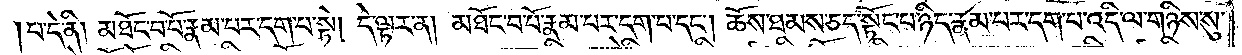པ་དེ་ནི། མཐོང་བ་པོ་རྣམ་པར་དག་པ་སྟེ། དེ་ལྟར་ན། མཐོང་བ་པོ་རྣམ་པར་དག་པ་དང༌། ཆོས་ཐམས་ཅད་སྟོང་པ་ཉིད་རྣམ་པར་དག་པ་འདི་ལ་གཉིས་སུ་
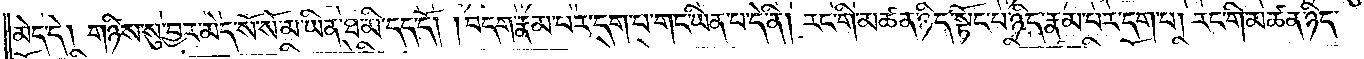མེད་དེ། གཉིས་སུ་བྱར་མེད་སོ་སོ་མ་ཡིན་ཐ་མི་དད་དོ། །བདག་རྣམ་པར་དག་པ་གང་ཡིན་པ་དེ་ནི། རང་གི་མཚན་ཉིད་སྟོང་པ་ཉིད་རྣམ་པར་དག་པ། རང་གི་མཚན་ཉིད་
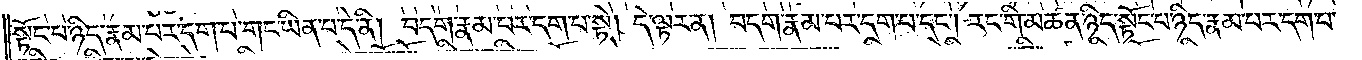སྟོང་པ་ཉིད་རྣམ་པར་དག་པ་གང་ཡིན་པ་དེ་ནི། བདག་རྣམ་པར་དག་པ་སྟེ། དེ་ལྟར་ན། བདག་རྣམ་པར་དག་པ་དང༌། རང་གི་མཚན་ཉིད་སྟོང་པ་ཉིད་རྣམ་པར་དག་པ་
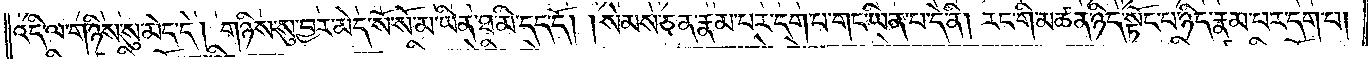འདི་ལ་གཉིས་སུ་མེད་དེ། གཉིས་སུ་བྱར་མེད་སོ་སོ་མ་ཡིན་ཐ་མི་དད་དོ། །སེམས་ཅན་རྣམ་པར་དག་པ་གང་ཡིན་པ་དེ་ནི། རང་གི་མཚན་ཉིད་སྟོང་པ་ཉིད་རྣམ་པར་དག་པ།
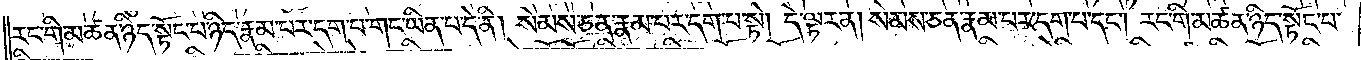རང་གི་མཚན་ཉིད་སྟོང་པ་ཉིད་རྣམ་པར་དག་པ་གང་ཡིན་པ་དེ་ནི། སེམས་ཅན་རྣམ་པར་དག་པ་སྟེ། དེ་ལྟར་ན། སེམས་ཅན་རྣམ་པར་དག་པ་དང༌། རང་གི་མཚན་ཉིད་སྟོང་པ་
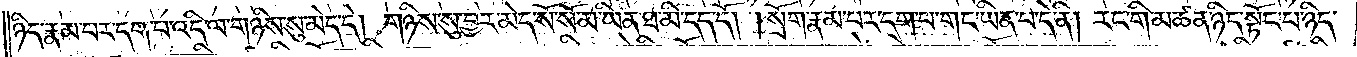ཉིད་རྣམ་པར་དག་པ་འདི་ལ་གཉིས་སུ་མེད་དེ། གཉིས་སུ་བྱར་མེད་སོ་སོ་མ་ཡིན་ཐ་མི་དད་དོ། །སྲོག་རྣམ་པར་དག་པ་གང་ཡིན་པ་དེ་ནི། རང་གི་མཚན་ཉིད་སྟོང་པ་ཉིད་
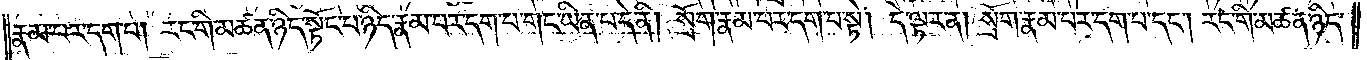རྣམ་པར་དག་པ། རང་གི་མཚན་ཉིད་སྟོང་པ་ཉིད་རྣམ་པར་དག་པ་གང་ཡིན་པ་དེ་ནི། སྲོག་རྣམ་པར་དག་པ་སྟེ། དེ་ལྟར་ན། སྲོག་རྣམ་དག་པ་དང༌། རང་གི་མཚན་ཉིད་
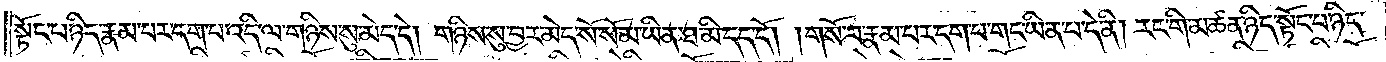སྟོང་པ་ཉིད་རྣམ་པར་དག་པ་འདི་ལ་གཉིས་སུ་མེད་དེ། གཉིས་སུ་བྱར་མེད་སོ་སོ་མ་ཡིན་ཐ་མི་དད་དོ། །གསོ་བ་རྣམ་པར་དག་པ་གང་ཡིན་པ་དེ་ནི། རང་གི་མཚན་ཉིད་སྟོང་པ་ཉིད་
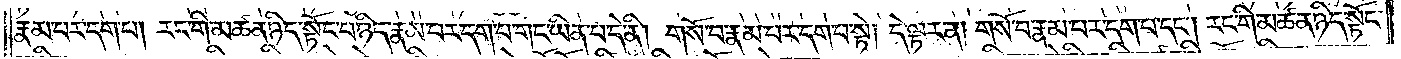རྣམ་པར་དག་པ། རང་གི་མཚན་ཉིད་སྟོང་པ་ཉིད་རྣམ་པར་དག་པ་གང་ཡིན་པ་དེ་ནི། གསོ་བ་རྣམ་པར་དག་པ་སྟེ། དེ་ལྟར་ན། གསོ་བ་རྣམ་པར་དག་པ་དང༌། རང་གི་མཚན་ཉིད་སྟོང་
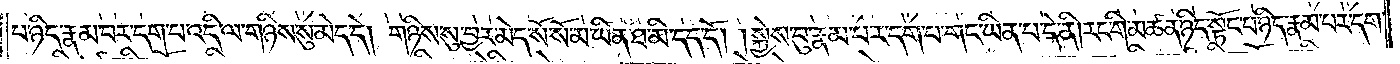པ་ཉིད་རྣམ་པར་དག་པ་འདི་ལ་གཉིས་སུ་མེད་དེ། གཉིས་སུ་བྱར་མེད་སོ་སོ་མ་ཡིན་ཐ་མི་དད་དོ། །སྐྱེས་བུ་རྣམ་པར་དག་པ་གང་ཡིན་པ་དེ་ནི། རང་གི་མཚན་ཉིད་སྟོང་པ་ཉིད་རྣམ་པར་དག་
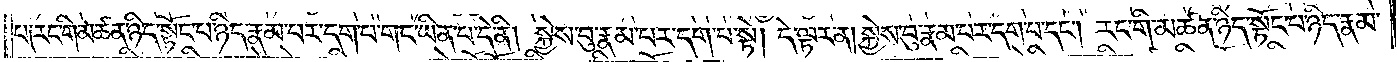པ། རང་གི་མཚན་ཉིད་སྟོང་པ་ཉིད་རྣམ་པར་དག་པ་གང་ཡིན་པ་དེ་ནི། སྐྱེས་བུ་རྣམ་པར་དག་པ་སྟེ། དེ་ལྟར་ན། སྐྱེས་བུ་རྣམ་པར་དག་པ་དང༌། རང་གི་མཚན་ཉིད་སྟོང་པ་ཉིད་རྣམ་
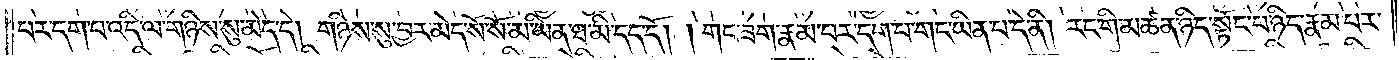པར་དག་པ་འདི་ལ་གཉིས་སུ་མེད་དེ། གཉིས་སུ་བྱར་མེད་སོ་སོ་མ་ཡིན་ཐ་མི་དད་དོ། །གང་ཟག་རྣམ་པར་དག་པ་གང་ཡིན་པ་དེ་ནི། རང་གི་མཚན་ཉིད་སྟོང་པ་ཉིད་རྣམ་པར་
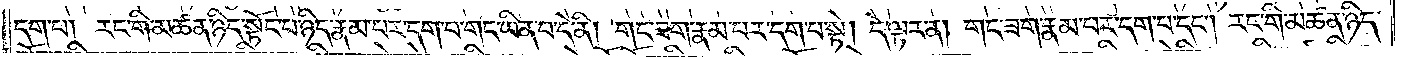དག་པ། རང་གི་མཚན་ཉིད་སྟོང་པ་ཉིད་རྣམ་པར་དག་པ་གང་ཡིན་པ་དེ་ནི། གང་ཟག་རྣམ་པར་དག་པ་སྟེ། དེ་ལྟར་ན། གང་ཟག་རྣམ་པར་དག་པ་དང༌། རང་གི་མཚན་ཉིད་
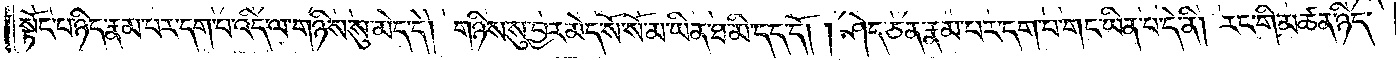སྟོང་པ་ཉིད་རྣམ་པར་དག་པ་འདི་ལ་གཉིས་སུ་མེད་དེ། གཉིས་སུ་བྱར་མེད་སོ་སོ་མ་ཡིན་ཐ་མི་དད་དོ། །ཤེད་ཅན་རྣམ་པར་དག་པ་གང་ཡིན་པ་དེ་ནི། རང་གི་མཚན་ཉིད་
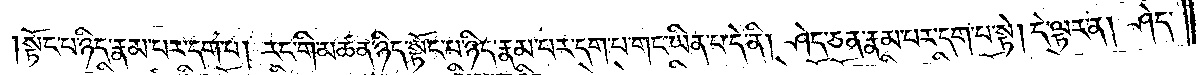སྟོང་པ་ཉིད་རྣམ་པར་དག་པ། རང་གི་མཚན་ཉིད་སྟོང་པ་ཉིད་རྣམ་པར་དག་པ་གང་ཡིན་པ་དེ་ནི། ཤེད་ཅན་རྣམ་པར་དག་པ་སྟེ། དེ་ལྟར་ན། ཤེད་
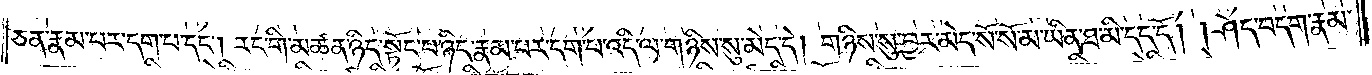ཅན་རྣམ་པར་དག་པ་དང༌། རང་གི་མཚན་ཉིད་སྟོང་པ་ཉིད་རྣམ་པར་དག་པ་འདི་ལ་གཉིས་སུ་མེད་དེ། གཉིས་སུ་བྱར་མེད་སོ་སོ་མ་ཡིན་ཐ་མི་དད་དོ། །ཤེད་བདག་རྣམ་
